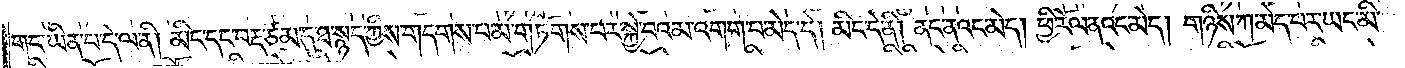གང་ཡིན་པ་དེ་ལ་ནི། མིང་དང་བརྡ་ཙམ་དུ་ཐ་སྙད་ཀྱིས་གདགས་པ་མ་གཏོགས་པར་སྐྱེ་བའམ་འགག་པ་མེད་དེ། མིང་དེ་ནི། ནང་ནའང་མེད། ཕྱི་རོལ་ནའང་མེད། གཉིས་ཀ་མེད་པར་ཡང་མི་
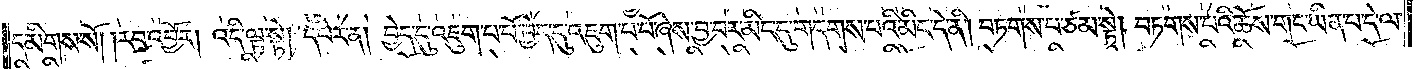དམིགས་སོ། །རབ་འབྱོར། འདི་ལྟ་སྟེ། དཔེར་ན། བྱེད་དུ་འཇུག་པ་པོ་བྱེད་དུ་འཇུག་པ་པོ་ཞེས་བྱ་བར་མིང་དུ་གདགས་པའི་མིང་དེ་ནི། བཏགས་པ་ཙམ་སྟེ། བཏགས་པའི་ཆོས་གང་ཡིན་པ་དེ་ལ་
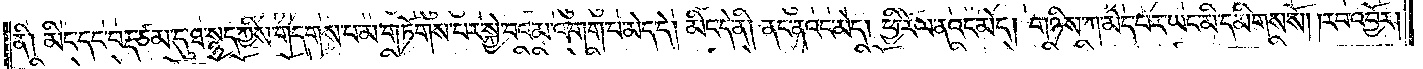ནི། མིང་དང་བརྡ་ཙམ་དུ་ཐ་སྙད་ཀྱིས་གདགས་པ་མ་གཏོགས་པར་སྐྱེ་བའམ་འགག་པ་མེད་དེ། མིང་དེ་ནི། ནང་ནའང་མེད། ཕྱི་རོལ་ནའང་མེད། གཉིས་ཀ་མེད་པར་ཡང་མི་དམིགས་སོ། །རབ་འབྱོར།
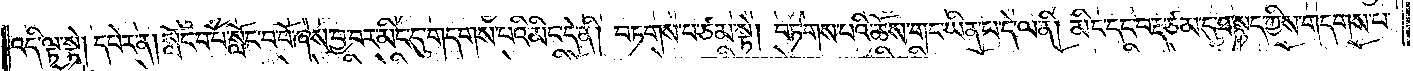འདི་ལྟ་སྟེ། དཔེར་ན། སློང་བ་པོ་སློང་བ་པོ་ཞེས་བྱ་བར་མིང་དུ་གདགས་པའི་མིང་དེ་ནི། བཏགས་པ་ཙམ་སྟེ། བཏགས་པའི་ཆོས་གང་ཡིན་པ་དེ་ལ་ནི། མིང་དང་བརྡ་ཙམ་དུ་ཐ་སྙད་ཀྱིས་གདགས་པ་
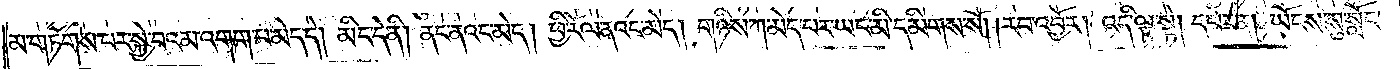མ་གཏོགས་པར་སྐྱེ་བའམ་འགག་པ་མེད་དེ། མིང་དེ་ནི། ནང་ནའང་མེད། ཕྱི་རོལ་ནའང་མེད། གཉིས་ཀ་མེད་པར་ཡང་མི་དམིགས་སོ། །རབ་འབྱོར། འདི་ལྟ་སྟེ། དཔེར་ན། ཡོངས་སུ་སློང་
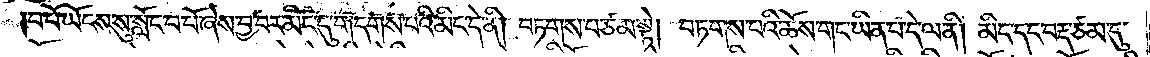བ་པོ་ཡོངས་སུ་སློང་བ་པོ་ཞེས་བྱ་བར་མིང་དུ་གདགས་པའི་མིང་དེ་ནི། བཏགས་པ་ཙམ་སྟེ། བཏགས་པའི་ཆོས་གང་ཡིན་པ་དེ་ལ་ནི། མིང་དང་བརྡ་ཙམ་དུ་
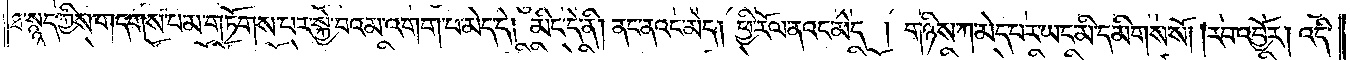ཐ་སྙད་ཀྱིས་གདགས་པ་མ་གཏོགས་པར་སྐྱེ་བའམ་འགག་པ་མེད་དེ། མིང་དེ་ནི། ནང་ནའང་མེད། ཕྱི་རོལ་ནའང་མེད། གཉིས་ཀ་མེད་པར་ཡང་མི་དམིགས་སོ། །རབ་འབྱོར། འདི་
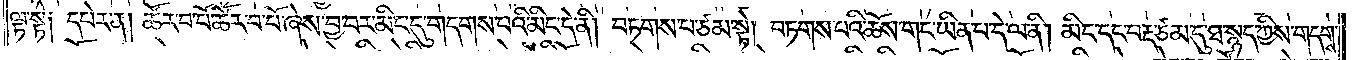ལྟ་སྟེ༑ དཔེར་ན། ཚོར་བ་པོ་ཚོར་བ་པོ་ཞེས་བྱ་བར་མིང་དུ་གདགས་པའི་མིང་དེ་ནི། བཏགས་པ་ཙམ་སྟེ། བཏགས་པའི་ཆོས་གང་ཡིན་པ་དེ་ལ་ནི། མིང་དང་བརྡ་ཙམ་དུ་ཐ་སྙད་ཀྱིས་གདགས་
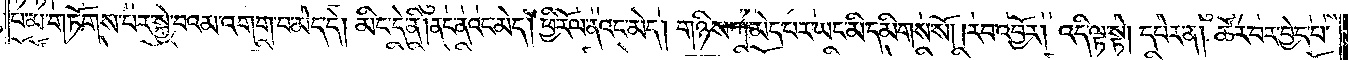པ་མ་གཏོགས་པར་སྐྱེ་བའམ་འགག་པ་མེད་དེ། མིང་དེ་ནི། ནང་ནའང་མེད། ཕྱི་རོལ་ནའང་མེད། གཉིས་ཀ་མེད་པར་ཡང་མི་དམིགས་སོ། །རབ་འབྱོར། འདི་ལྟ་སྟེ། དཔེར་ན། ཚོར་བར་བྱེད་པ་
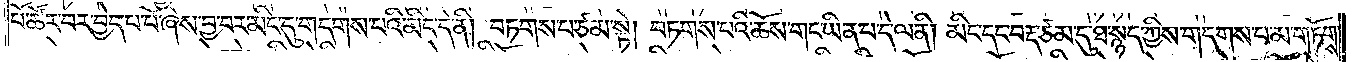པོ་ཚོར་བར་བྱེད་པ་པོ་ཞེས་བྱ་བར་མིང་དུ་གདགས་པའི་མིང་དེ་ནི། བཏགས་པ་ཙམ་སྟེ། བཏགས་པའི་ཆོས་གང་ཡིན་པ་དེ་ལ་ནི། མིང་དང་བརྡ་ཙམ་དུ་ཐ་སྙད་ཀྱིས་གདགས་པ་མ་གཏོགས་
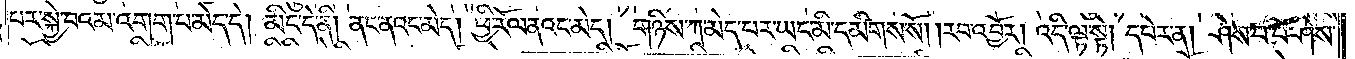པར་སྐྱེ་བའམ་འགག་པ་མེད་དེ། མིང་དེ་ནི། ནང་ནའང་མེད། ཕྱི་རོལ་ནའང་མེད། གཉིས་ཀ་མེད་པར་ཡང་མི་དམིགས་སོ། །རབ་འབྱོར། འདི་ལྟ་སྟེ། དཔེར་ན། ཤེས་པ་པོ་ཤེས་
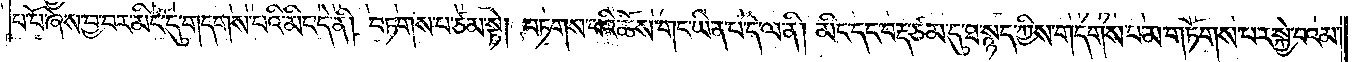པ་པོ་ཞེས་བྱ་བར་མིང་དུ་གདགས་པའི་མིང་དེ་ནི། བཏགས་པ་ཙམ་སྟེ། བཏགས་པའི་ཆོས་གང་ཡིན་པ་དེ་ལ་ནི། མིང་དང་བརྡ་ཙམ་དུ་ཐ་སྙད་ཀྱིས་གདགས་པ་མ་གཏོགས་པར་སྐྱེ་བའམ་
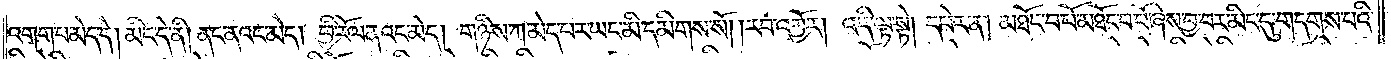འགག་པ་མེད་དེ། མིང་དེ་ནི། ནང་ནའང་མེད། ཕྱི་རོལ་ནའང་མེད། གཉིས་ཀ་མེད་པར་ཡང་མི་དམིགས་སོ། །རབ་འབྱོར། འདི་ལྟ་སྟེ། དཔེར་ན། མཐོང་བ་པོ་མཐོང་བ་པོ་ཞེས་བྱ་བར་མིང་དུ་གདགས་པའི་
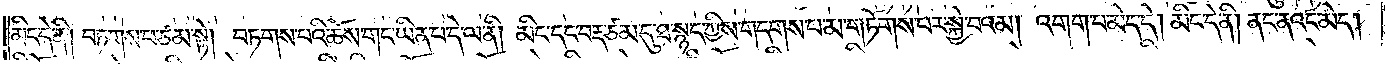མིང་དེ་ནི། བཏགས་པ་ཙམ་སྟེ། བཏགས་པའི་ཆོས་གང་ཡིན་པ་དེ་ལ་ནི། མིང་དང་བརྡ་ཙམ་དུ་ཐ་སྙད་ཀྱིས་གདགས་པ་མ་གཏོགས་པར་སྐྱེ་བའམ། འགག་པ་མེད་དེ། མིང་དེ་ནི། ནང་ནའང་མེད།
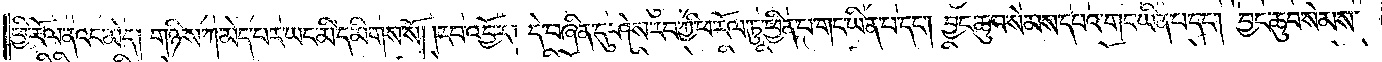ཕྱི་རོལ་ནའང་མེད། གཉིས་ཀ་མེད་པར་ཡང་མི་དམིགས་སོ། །རབ་འབྱོར། དེ་བཞིན་དུ་ཤེས་རབ་ཀྱི་ཕ་རོལ་ཏུ་ཕྱིན་པ་གང་ཡིན་པ་དང༌། བྱང་ཆུབ་སེམས་དཔའ་གང་ཡིན་པ་དང༌། བྱང་ཆུབ་སེམས་
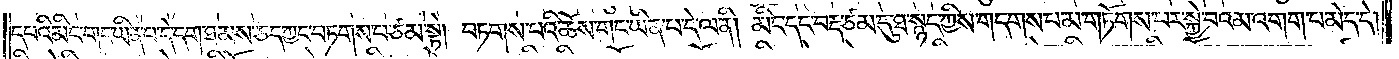དཔའི་མིང་གང་ཡིན་པ་དེ་དག་ཐམས་ཅད་ཀྱང་བཏགས་པ་ཙམ་སྟེ། བཏགས་པའི་ཆོས་གང་ཡིན་པ་དེ་ལ་ནི། མིང་དང་བརྡ་ཙམ་དུ་ཐ་སྙད་ཀྱིས་གདགས་པ་མ་གཏོགས་པར་སྐྱེ་བའམ་འགག་པ་མེད་དེ།
